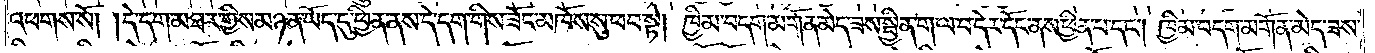འཕགས་སོ། །དེ་དག་མཐར་གྱིས་མཉན་ཡོད་དུ་ཕྱིན་ནས་དེ་དག་གིས་ཟོང་མཁོས་སུ་ཕབ་སྟེ། ཁྱིམ་བདག་མགོན་མེད་ཟས་སྦྱིན་ག་ལ་བ་དེར་དོང་ནས་ཕྱིན་པ་དང༌། ཁྱིམ་བདག་མགོན་མེད་ཟས་
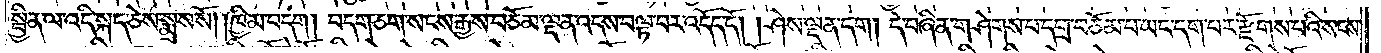སྦྱིན་ལ་འདི་སྐད་ཅེས་སྨྲས་སོ། །ཁྱིམ་བདག། བདག་ཅག་སངས་རྒྱས་བཅོམ་ལྡན་འདས་བལྟ་བར་འདོད་དོ། །ཤེས་ལྡན་དག། དེ་བཞིན་གཤེགས་པ་དགྲ་བཅོམ་པ་ཡང་དག་པར་རྫོགས་པའི་སངས་
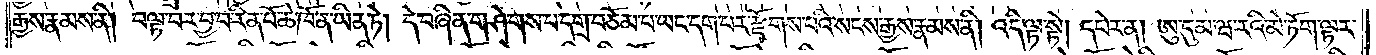རྒྱས་རྣམས་ནི། བལྟ་བར་བྱ་བ་རིན་པོ་ཆེ་ཁོ་ན་ཡིན་ཏེ། དེ་བཞིན་གཤེགས་པ་དགྲ་བཅོམ་པ་ཡང་དག་པར་རྫོགས་པའི་སངས་རྒྱས་རྣམས་ནི། འདི་ལྟ་སྟེ། དཔེར་ན། ཨུ་དུམ་ཝ་རའི་མེ་ཏོག་ལྟར་
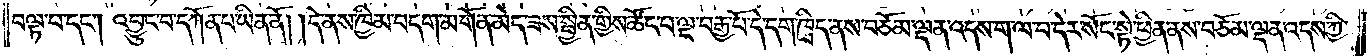བལྟ་བ་དང༌། འབྱུང་བ་དཀོན་པ་ཡིན་ནོ། །དེ་ནས་ཁྱིམ་བདག་མགོན་མེད་ཟས་སྦྱིན་གྱིས་ཚོང་པ་ལྔ་བརྒྱ་པོ་དེ་དག་ཁྲིད་ནས་བཅོམ་ལྡན་འདས་ག་ལ་བ་དེར་སོང་སྟེ་ཕྱིན་ནས་བཅོམ་ལྡན་འདས་ཀྱི་
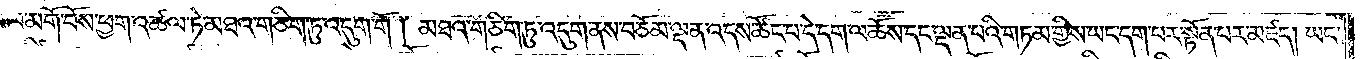ཞབས་ལ་མགོ་བོས་ཕྱག་འཚལ་ཏེ་མཐའ་གཅིག་ཏུ་འདུག་གོ །མཐའ་གཅིག་ཏུ་འདུག་ནས་བཅོམ་ལྡན་འདས་ཚོང་བ་དེ་དག་ལ་ཆོས་དང་ལྡན་པའི་གཏམ་གྱིས་ཡང་དག་པར་སྟོན་པར་མཛད། ཡང་
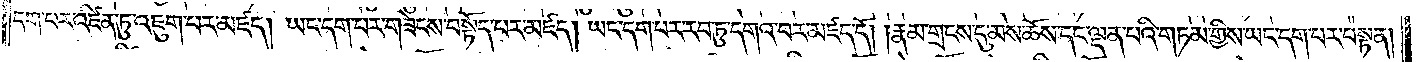དག་པར་འཛིན་ཏུ་འཇུག་པར་མཛད། ཡང་དག་པར་གཟེངས་བསྟོད་པར་མཛད། ཡང་དག་པར་རབ་ཏུ་དགའ་བར་མཛད་དོ། །རྣམ་གྲངས་དུ་མས་ཆོས་དང་ལྡན་པའི་གཏམ་གྱིས་ཡང་དག་པར་བསྟན།
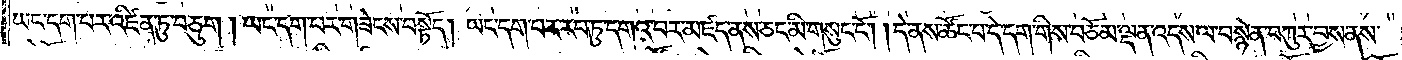ཡང་དག་པར་འཛིན་ཏུ་བཅུག །ཡང་དག་པར་གཟེངས་བསྟོད། ཡང་དག་པར་རབ་ཏུ་དགའ་བར་མཛད་ནས་ཅང་མི་གསུང་ངོ༌། །དེ་ནས་ཚོང་པ་དེ་དག་གིས་བཅོམ་ལྡན་འདས་ལ་བསྙེན་བཀུར་བྱས་ནས་
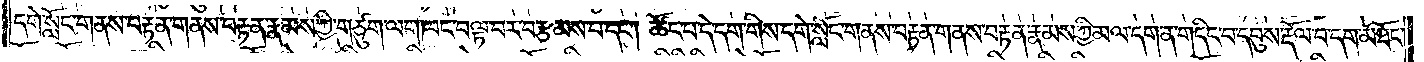དགེ་སློང་གནས་བརྟན་གནས་བརྟན་རྣམས་ཀྱི་གཙུག་ལག་ཁང་བལྟ་བར་བརྩམས་པ་དང༌། ཚོང་པ་དེ་དག་གིས་དགེ་སློང་གནས་བརྟན་གནས་བརྟན་རྣམས་ཀྱི་མ་དག་ན་གདིང་བ་དབུས་རྡོལ་བ་དག་མཐོང་
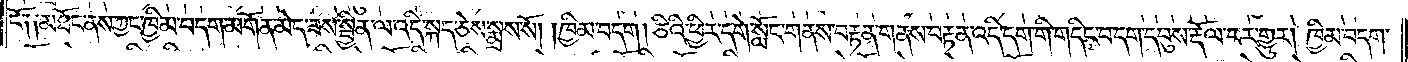ངོ༌༎མཐོང་ནས་ཀྱང་ཁྱིམ་བདག་མགོན་མེད་ཟས་སྦྱིན་ལ་འདི་སྐད་ཅེས་སྨྲས་སོ། །ཁྱིམ་བདག། ཅིའི་ཕྱིར་དགེ་སློང་གནས་བརྟན་གནས་བརྟན་འདི་དག་གི་གདིང་བ་དག་དབུས་རྡོལ་བར་གྱུར། ཁྱིམ་བདག་
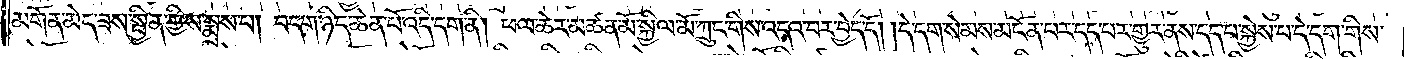མགོན་མེད་ཟས་སྦྱིན་གྱིས་སྨྲས་པ། བདག་ཉིད་ཆེན་པོ་འདི་དག་ནི། ཕལ་ཆེར་མཚན་མོ་སྐྱིལ་མོ་ཀྲུང་གིས་འདའ་བར་བྱེད་དོ། །དེ་དག་སེམས་མངོན་པར་དད་པར་གྱུར་ནས་དད་པ་སྐྱེས་པ་དེ་དག་གིས་
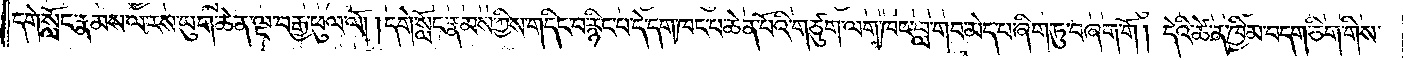དགེ་སློང་རྣམས་ལ་རས་ཡུག་ཆེན་ལྔ་བརྒྱ་ཕུལ་ལོ། །དགེ་སློང་རྣམས་ཀྱིས་གདིང་བ་རྙིང་བ་དེ་དག་ཁང་པ་ཆེན་པོའི་གཙུག་ལག་ཁང་བླ་གབ་མེད་པ་ཞིག་ཏུ་བཞག་གོ ། དེའི་ཚེ་ན་ཁྱིམ་བདག་ཅིག་གིས་
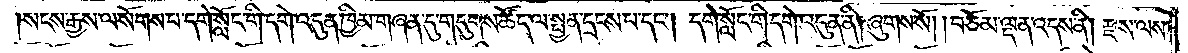སངས་རྒྱས་ལ་སོགས་པ་དགེ་སློང་གི་དགེ་འདུན་ཁྱིམ་གཞན་དུ་གདུགས་ཚོད་ལ་སྤྱན་དྲངས་པ་དང༌། དགེ་སློང་གི་དགེ་འདུན་ནི། ཞུགས་སོ། །བཅོམ་ལྡན་འདས་ནི། རྫས་ལས་
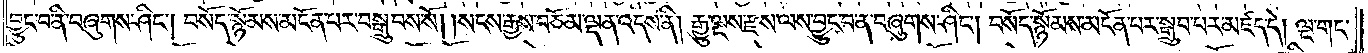བྱུང་བ་ནི་བཞུགས་ཤིང༌། བསོད་སྙོམས་མངོན་པར་བསྒྲུབས་སོ། །སངས་རྒྱས་བཅོམ་ལྡན་འདས་ནི། རྒྱུ་ལྔས་རྫས་ལས་བྱུང་བ་ན་བཞུགས་ཤིང༌། བསོད་སྙོམས་མངོན་པར་སྒྲུབ་པར་མཛད་དེ། ལྔ་གང་
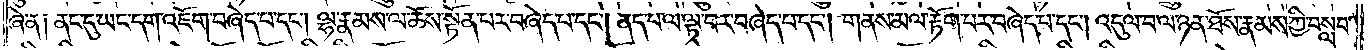ཞེ་ན། ནང་དུ་ཡང་དག་འཇོག་བཞེད་པ་དང༌། ལྷ་རྣམས་ལ་ཆོས་སྟོན་པར་བཞེད་པ་དང༌། ནད་པ་ལ་ལྟ་བར་བཞེད་པ་དང༌། གནས་མལ་རྟོག་པར་བཞེད་པ་དང༌། འདུལ་བ་ལ་ཉན་ཐོས་རྣམས་ཀྱི་བསླབ་
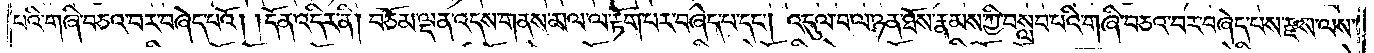པའི་གཞི་བཅའ་བར་བཞེད་པའོ། །དོན་འདིར་ནི། བཅོམ་ལྡན་འདས་གནས་མལ་ལ་རྟོག་པར་བཞེད་པ་དང༌། འདུལ་བ་ལ་ཉན་ཐོས་རྣམས་ཀྱི་བསླབ་པའི་གཞི་བཅའ་བར་བཞེད་པས་རྫས་ལས་
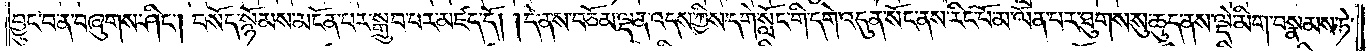བྱུང་བ་ན་བཞུགས་ཤིང༌། བསོད་སྙོམས་མངོན་པར་སྒྲུབ་པར་མཛད་དོ། །དེ་ནས་བཅོམ་ལྡན་འདས་ཀྱིས་དགེ་སློང་གི་དགེ་འདུན་སོང་ནས་རིང་པོ་མ་ལོན་པར་ཐུགས་སུ་ཆུད་ནས་ལྡེ་མིག་བསྣམས་ཏེ་
